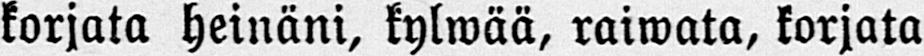korjata heinäni, kylwää, raiwata, korjata
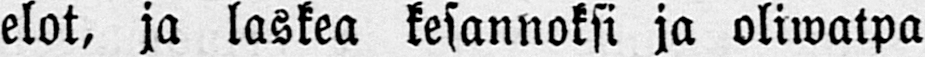elot, ja laskea kesannoksi ja oliwatpa
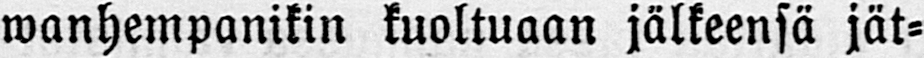wanhempanikin kuoltuaan jälkeensä jät-
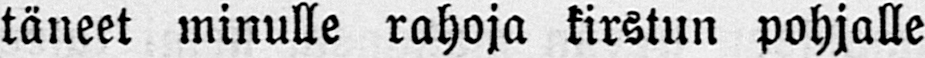täneet minulle rahoja kirstun pohjalle
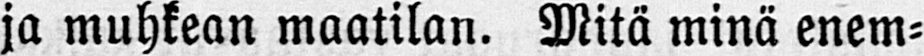ja muhkean maatilan. Mitä minä enem-
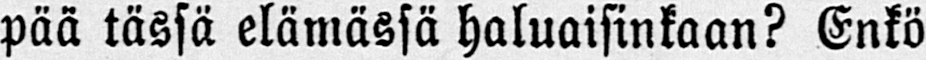pää tässä elämässä haluaisinkaan? Enkö
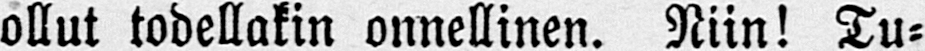ollut todellakin onnellinen. Niin! Tu-
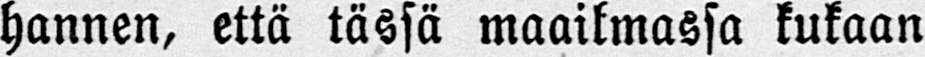hannen, että tässä maailmassa kukaan
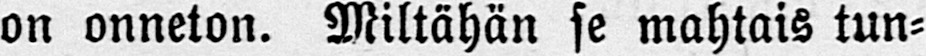on onneton. Miltähän se mahtais tun-
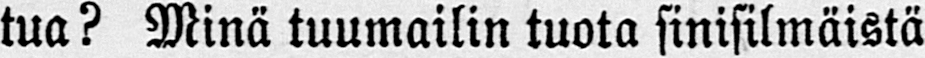tua? Minä tuumailin tuota sinisilmäistä
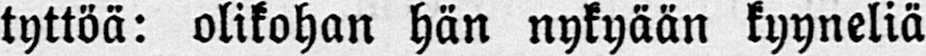tyttöä: olikohan hän nykyään kyyneliä
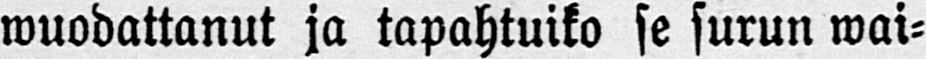wuodattanut ja tapahtuiko se surun wai-
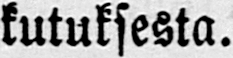kutuksesta.
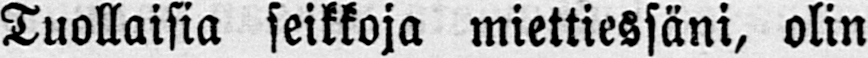Tuollaisia seikkoja miettiessäni, olin
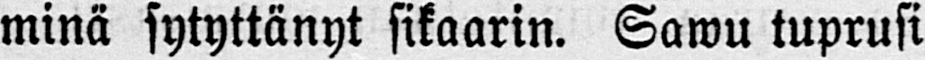minä sytyttänyt sikaarin. Sawu tuprusi
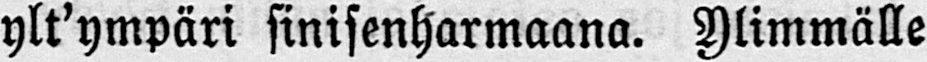ylt'ympäri sinisenharmaana. Ylimmälle
